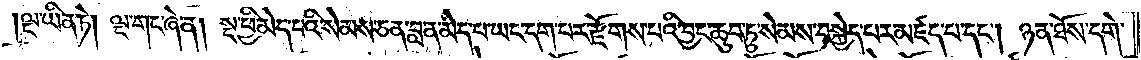ལྔ་ཡིན་ཏེ། ལྔ་གང་ཞེ་ན། སྔ་ཕྱི་མེད་པའི་སེམས་ཅན་བླ་ན་མེད་པ་ཡང་དག་པར་རྫོགས་པའི་བྱང་ཆུབ་ཏུ་སེམས་བསྐྱེད་པར་མཛད་པ་དང༌། ཉན་ཐོས་དགེ་
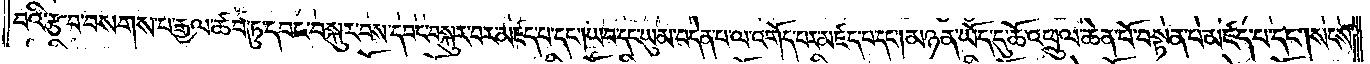བའི་རྩ་བ་བསགས་པ་རྒྱལ་ཚབ་ཏུ་དབང་བསྐུར་བས་དབང་བསྐུར་བར་མཛད་པ་དང༌། ཡབ་དང་ཡུམ་བདེན་པ་ལ་འགོད་པར་མཛད་པ་དང༌། མཉན་ཡོད་དུ་ཆོ་འཕྲུལ་ཆེན་པོ་བསྟན་པ་མཛད་པ་དང༌། སངས་
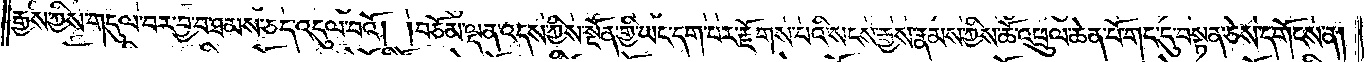རྒྱས་ཀྱིས་གདུལ་བར་བྱ་བ་ཐམས་ཅད་འདུལ་བའོ། །བཅོམ་ལྡན་འདས་ཀྱིས་སྔོན་གྱི་ཡང་དག་པར་རྫོགས་པའི་སངས་རྒྱས་རྣམས་ཀྱིས་ཆོ་འཕྲུལ་ཆེན་པོ་གང་དུ་བསྟན་ཅེས་དགོངས་ན།
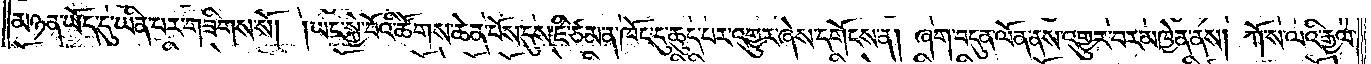མཉན་ཡོད་དུ་ཡིན་པར་གཟིགས་སོ། །ཡང་སྐྱེ་བོའི་ཚོགས་ཆེན་པོས་དུས་ཇི་ཙམ་ན་ཁོང་དུ་ཆུད་པར་འགྱུར་ཞེས་དགོངས་ན། ཞག་བདུན་ལོན་ནས་འགྱུར་བར་མཁྱེན་ནས། ཀོ་ས་ལའི་རྒྱལ་
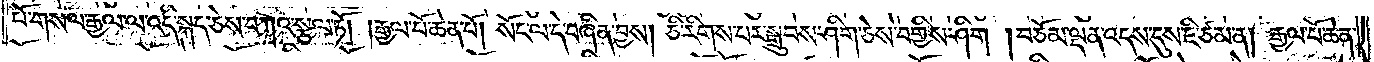པོ་གསལ་རྒྱལ་ལ་འདི་སྐད་ཅེས་བཀའ་སྩལ་ཏོ། །རྒྱལ་པོ་ཆེན་པོ། སོང་ལ་དེ་བཞིན་བྱས། ཅི་རིགས་པར་སྒྲུབས་ཤིག་ཅེས་བགྱིས་ཤིག །བཅོམ་ལྡན་འདས་དུས་ཇི་ཙམ་ན། རྒྱལ་པོ་ཆེན་
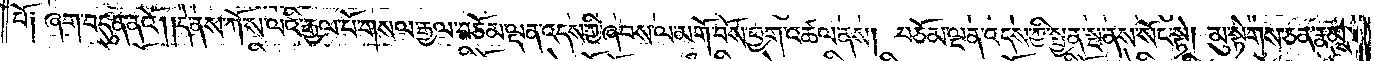པོ༑ ཞག་བདུན་ནའོ། །དེ་ནས་ཀོ་ས་ལའི་རྒྱལ་པོ་གསལ་རྒྱལ་བཅོམ་ལྡན་འདས་ཀྱི་ཞབས་ལ་མགོ་བོས་ཕྱག་འཚལ་ནས། བཅོམ་ལྡན་འདས་ཀྱི་སྤྱན་སྔ་ནས་སོང་སྟེ། མུ་སྟེགས་ཅན་རྣམས་
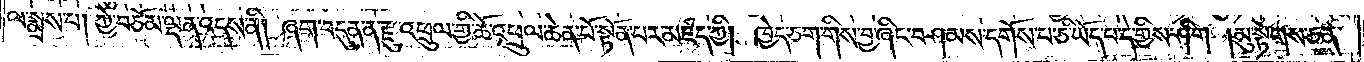ལ་སྨྲས་པ། ཀྱེ་བཅོམ་ལྡན་འདས་ནི། ཞག་བདུན་ན་རྫུ་འཕྲུལ་གྱི་ཆོ་འཕྲུལ་ཆེན་པོ་སྟོན་པར་མཛད་ཀྱི། ཁྱེད་ཅག་གིས་བྱ་ཞིང་བཤམས་དགོས་པ་ཅི་ཡོད་པ་དེ་གྱིས་ཤིག །མུ་སྟེགས་ཅན་
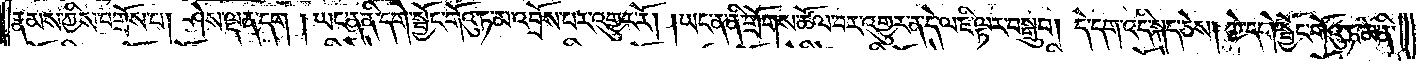རྣམས་ཀྱིས་བགྲོས་པ། ཤེས་ལྡན་དག། ཡང་ན་ནི་དགེ་སྦྱོང་གོའུ་ཏ་མ་འབྲོས་པར་འགྱུར་རོ། །ཡང་ན་ནི་གྲོགས་ཚོལ་བར་འགྱུར་ན་དེ་ལ་ཇི་ལྟར་བསྒྲུབ། དེ་དག་འདི་སྐད་ཅེས། ཀྱེ་དགེ་སྦྱོང་གོའུ་ཏ་མ་ནི་
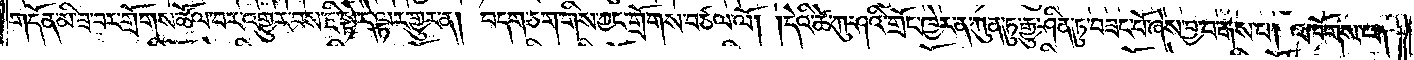གདོན་མི་ཟ་བར་གྲོགས་ཚོལ་བར་འགྱུར་བས་ཇི་སྟེ་དེ་ལྟར་གྱུར་ན། བདག་ཅག་གིས་ཀྱང་གྲོགས་བཙལ་ལོ། །དེའི་ཚེ་ཀུ་ཤའི་གྲོང་ཁྱེར་ན་ཀུན་ཏུ་རྒྱུ་ཤིན་ཏུ་བཟང་པོ་ཞེས་བྱ་བ་རྒས་པ། འཁོགས་པ།
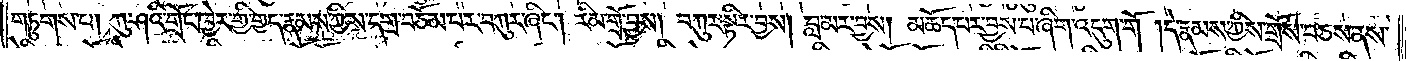གཏུགས་པ། ཀུ་ཤའི་གྲོང་ཁྱེར་གྱི་གྱད་རྣམས་ཀྱིས་དགྲ་བཅོམ་པར་བཀུར་ཞིང༌། རིམ་གྲོ་བྱས། བཀུར་སྟིར་བྱས། བླ་མར་བྱས། མཆོད་པར་བྱས་པ་ཞིག་འདུག་གོ །དེ་རྣམས་ཀྱིས་གྲོས་བཅས་ནས་
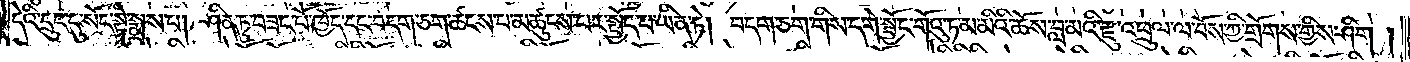དེའི་དྲུང་དུ་སོང་སྟེ་སྨྲས་པ། ཤིན་ཏུ་བཟང་པོ་ཁྱོད་དང་བདག་ཅག་ཚངས་པ་མཚུངས་པར་སྤྱོད་པ་ཡིན་ཏེ། བདག་ཅག་གིས་དགེ་སྦྱོང་གོའུ་ཏ་མ་མིའི་ཆོས་བླ་མའི་རྫུ་འཕྲུལ་ལ་བོས་ཀྱི་གྲོགས་གྱིས་ཤིག །
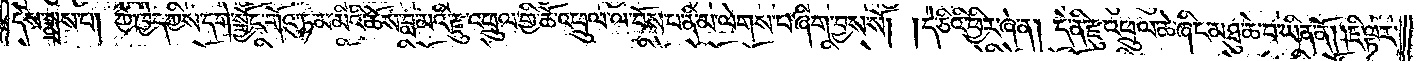དེས་སྨྲས་པ། ཀྱེ་ཁྱེད་ཀྱིས་དགེ་སྦྱོང་གོའུ་ཏ་མ་མིའི་ཆོས་བླ་མའི་རྫུ་འཕྲུལ་གྱི་ཆོ་འཕྲུལ་ལ་བོས་པ་ནི་མ་ལེགས་པ་ཞིག་བྱས་སོ། །དེ་ཅིའི་ཕྱིར་ཞེ་ན། དེ་ནི་རྫུ་འཕྲུལ་ཆེ་ཞིང་མཐུ་ཆེ་བ་ཡིན་ནོ། །ཇི་ལྟར་
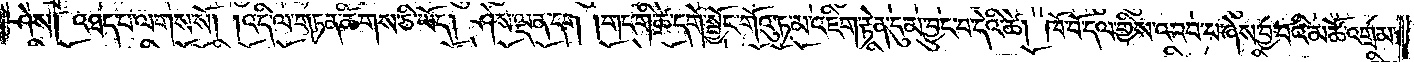ཤེས། འཐད་པ་ལགས་སོ། །འདི་ལ་གཏན་ཚིགས་ཅི་ཡོད། ཤེས་ལྡན་དག །གང་གི་ཚེ་དགེ་སྦྱོང་གོའུ་ཏ་མ་འཇིག་རྟེན་དུ་མ་བྱུང་བ་དེའི་ཚེ། ཁོ་བོ་དལ་གྱིས་འབབ་པ་ཞེས་བྱ་བའི་མཚོ་འགྲམ་
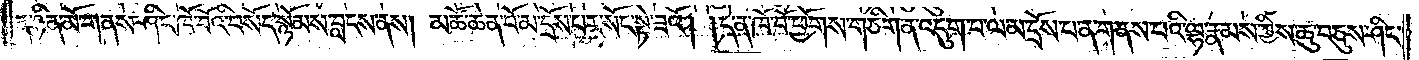ན་ཉིན་མོ་གནས་ཤིང་ཁོ་བོའི་བསོད་སྙོམས་བླངས་ནས། མཚོ་ཆེན་པོ་མ་དྲོས་པར་སོང་སྟེ་ཟའོ། །དེ་ན་ཁོ་བོ་ཕྱོགས་གཅིག་ན་འདུག་པ་ལ་མ་དྲོས་པ་ན་གནས་པའི་ལྷ་རྣམས་ཀྱིས་ཆུ་བཅུས་ཤིང་
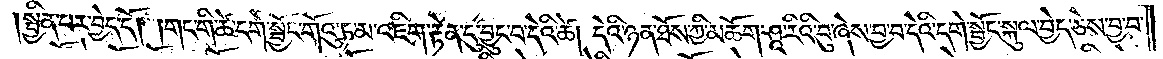སྦྱིན་པར་བྱེད་དོ། །གང་གི་ཚེ་དགེ་སྦྱོང་གོའུ་ཏ་མ་འཇིག་རྟེན་དུ་བྱུང་བ་དེའི་ཚེ། དེའི་ཉན་ཐོས་ཀྱི་མཆོག་ཤཱ་རིའི་བུ་ཞེས་བྱ་བ་དེའི་དགེ་སྦྱོང་སྐུལ་བྱེད་ཅེས་བྱ་བ་
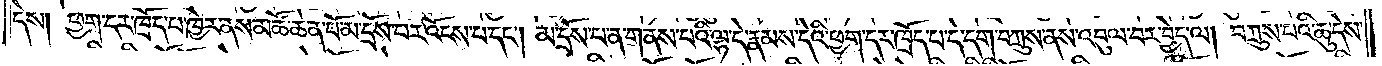དེས། ཕྱག་དར་ཁྲོད་པ་ཁྱེར་ནས་མཚོ་ཆེན་པོ་མ་དྲོས་པར་འོངས་པ་དང༌། །མ་དྲོས་པ་ན་གནས་པའི་ལྷ་དེ་རྣམས་དེའི་ཕྱག་དར་ཁྲོད་པ་དེ་དག་བཀྲུས་ནས་འབུལ་བར་བྱེད་ལ། བཀྲུས་པའི་ཆུ་དེས་
